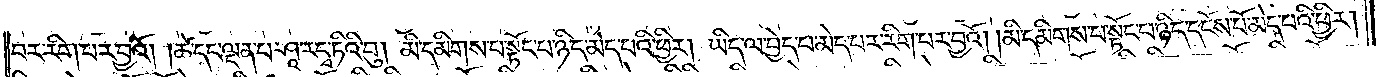བར་རིག་པར་བྱའོ། །ཚེ་དང་ལྡན་པ་ཤཱ་ར་དྭ་ཏིའི་བུ། མི་དམིགས་པ་སྟོང་པ་ཉིད་མེད་པའི་ཕྱིར། ཡིད་ལ་བྱེད་པ་མེད་པར་རིག་པར་བྱའོ། །མི་དམིགས་པ་སྟོང་པ་ཉིད་དངོས་པོ་མེད་པའི་ཕྱིར།
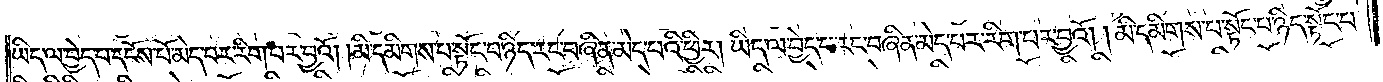ཡིད་ལ་བྱེད་པ་དངོས་པོ་མེད་པར་རིག་པར་བྱའོ། །མི་དམིགས་པ་སྟོང་པ་ཉིད་རང་བཞིན་མེད་པའི་ཕྱིར། ཡིད་ལ་བྱེད་པ་རང་བཞིན་མེད་པར་རིག་པར་བྱའོ། །མི་དམིགས་པ་སྟོང་པ་ཉིད་སྟོང་པ་
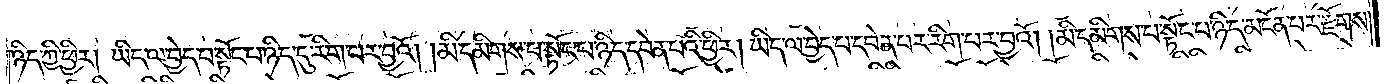ཉིད་ཀྱི་ཕྱིར། ཡིད་ལ་བྱེད་པ་སྟོང་པ་ཉིད་དུ་རིག་པར་བྱའོ། །མི་དམིགས་པ་སྟོང་པ་ཉིད་དབེན་པའི་ཕྱིར། ཡིད་ལ་བྱེད་པ་དབེན་པར་རིག་པར་བྱའོ། །མི་དམིགས་པ་སྟོང་པ་ཉིད་མངོན་པར་རྫོགས་
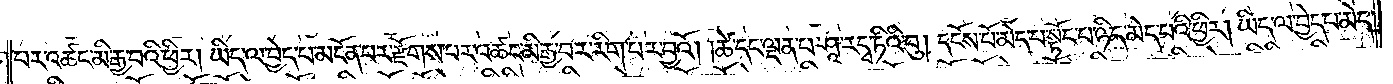པར་འཚང་མི་རྒྱ་བའི་ཕྱིར། ཡིད་ལ་བྱེད་པ་མངོན་པར་རྫོགས་པར་འཚང་མི་རྒྱ་བར་རིག་པར་བྱའོ། །ཚེ་དང་ལྡན་པ་ཤཱ་ར་དྭ་ཏིའི་བུ། དངོས་པོ་མེད་པ་སྟོང་པ་ཉིད་མེད་པའི་ཕྱིར། ཡིད་ལ་བྱེད་པ་མེད་
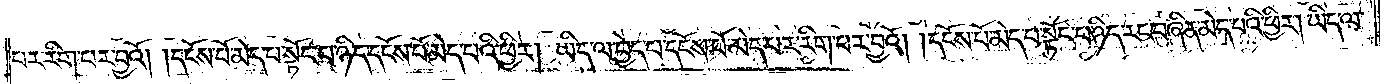པར་རིག་པར་བྱའོ། །དངོས་པོ་མེད་པ་སྟོང་པ་ཉིད་དངོས་པོ་མེད་པའི་ཕྱིར། ཡིད་ལ་བྱེད་པ་དངོས་པོ་མེད་པར་རིག་པར་བྱའོ། །དངོས་པོ་མེད་པ་སྟོང་པ་ཉིད་རང་བཞིན་མེད་པའི་ཕྱིར། ཡིད་ལ་
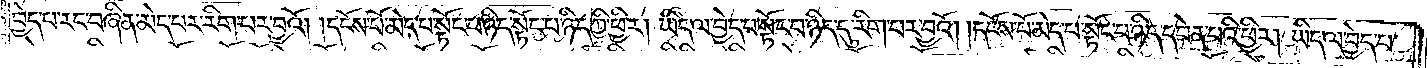བྱེད་པ་རང་བཞིན་མེད་པར་རིག་པར་བྱའོ། །དངོས་པོ་མེད་པ་སྟོང་པ་ཉིད་སྟོང་པ་ཉིད་ཀྱི་ཕྱིར། ཡིད་ལ་བྱེད་པ་སྟོང་པ་ཉིད་དུ་རིག་པར་བྱའོ། །དངོས་པོ་མེད་པ་སྟོང་པ་ཉིད་དབེན་པའི་ཕྱིར། ཡིད་ལ་བྱེད་པ་
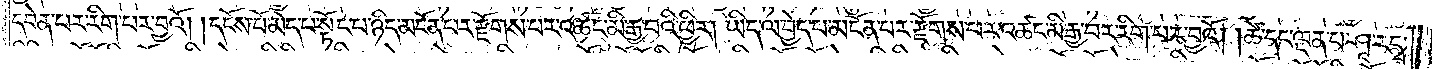དབེན་པར་རིག་པར་བྱའོ། །དངོས་པོ་མེད་པ་སྟོང་པ་ཉིད་མངོན་པར་རྫོགས་པར་འཚང་མི་རྒྱ་བའི་ཕྱིར། ཡིད་ལ་བྱེད་པ་མངོན་པར་རྫོགས་པར་འཚང་མི་རྒྱ་བར་རིག་པར་བྱའོ། །ཚེ་དང་ལྡན་པ་ཤཱ་ར་དྭ་
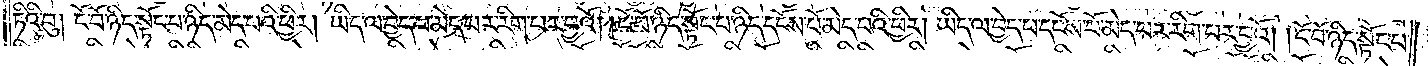ཏིའི་བུ། ངོ་བོ་ཉིད་སྟོང་པ་ཉིད་མེད་པའི་ཕྱིར། ཡིད་ལ་བྱེད་པ་མེད་པར་རིག་པར་བྱའོ། །ངོ་བོ་ཉིད་སྟོང་པ་ཉིད་དངོས་པོ་མེད་པའི་ཕྱིར། ཡིད་ལ་བྱེད་པ་དངོས་པོ་མེད་པར་རིག་པར་བྱའོ། །ངོ་བོ་ཉིད་སྟོང་པ་
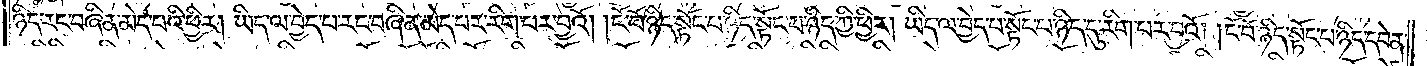ཉིད་རང་བཞིན་མེད་པའི་ཕྱིར། ཡིད་ལ་བྱེད་པ་རང་བཞིན་མེད་པར་རིག་པར་བྱའོ། །ངོ་བོ་ཉིད་སྟོང་པ་ཉིད་སྟོང་པ་ཉིད་ཀྱི་ཕྱིར། ཡིད་ལ་བྱེད་པ་སྟོང་པ་ཉིད་དུ་རིག་པར་བྱའོ། །ངོ་བོ་ཉིད་སྟོང་པ་ཉིད་དབེན་
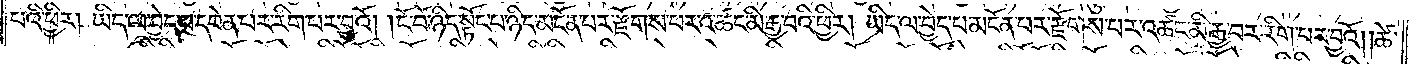པའི་ཕྱིར། ཡིད་ལ་བྱེད་པ་དབེན་པར་རིག་པར་བྱའོ། །ངོ་བོ་ཉིད་སྟོང་པ་ཉིད་མངོན་པར་རྫོགས་པར་འཚང་མི་རྒྱ་བའི་ཕྱིར། ཡིད་ལ་བྱེད་པ་མངོན་པར་རྫོགས་པར་འཚང་མི་རྒྱ་བར་རིག་པར་བྱའོ། །ཚེ་
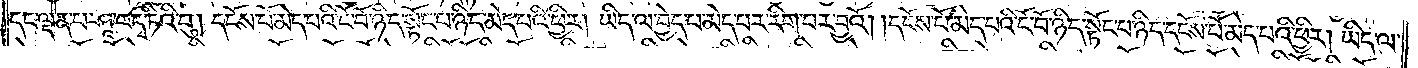དང་ལྡན་པ་ཤཱ་ར་དྭ་ཏིའི་བུ། དངོས་པོ་མེད་པའི་ངོ་བོ་ཉིད་སྟོང་པ་ཉིད་མེད་པའི་ཕྱིར། ཡིད་ལ་བྱེད་པ་མེད་པར་རིག་པར་བྱའོ། །དངོས་པོ་མེད་པའི་ངོ་བོ་ཉིད་སྟོང་པ་ཉིད་དངོས་པོ་མེད་པའི་ཕྱིར། ཡིད་ལ་
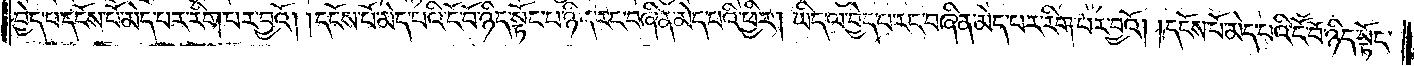བྱེད་པ་དངོས་པོ་མེད་པར་རིག་པར་བྱའོ། །དངོས་པོ་མེད་པའི་ངོ་བོ་ཉིད་སྟོང་པ་ཉིད་རང་བཞིན་མེད་པའི་ཕྱིར། ཡིད་ལ་བྱེད་པ་རང་བཞིན་མེད་པར་རིག་པར་བྱའོ། །དངོས་པོ་མེད་པའི་ངོ་བོ་ཉིད་སྟོང་
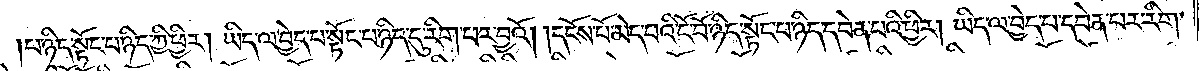པ་ཉིད་སྟོང་པ་ཉིད་ཀྱི་ཕྱིར། ཡིད་ལ་བྱེད་པ་སྟོང་པ་ཉིད་དུ་རིག་པར་བྱའོ། །དངོས་པོ་མེད་པའི་ངོ་བོ་ཉིད་སྟོང་པ་ཉིད་དབེན་པའི་ཕྱིར། ཡིད་ལ་བྱེད་པ་དབེན་པར་རིག་
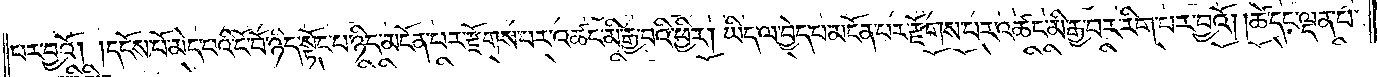པར་བྱའོ། །དངོས་པོ་མེད་པའི་ངོ་བོ་ཉིད་སྟོང་པ་ཉིད་མངོན་པར་རྫོགས་པར་འཚང་མི་རྒྱ་བའི་ཕྱིར། ཡིད་ལ་བྱེད་པ་མངོན་པར་རྫོགས་པར་འཚང་མི་རྒྱ་བར་རིག་པར་བྱའོ། །ཚེ་དང་ལྡན་པ་
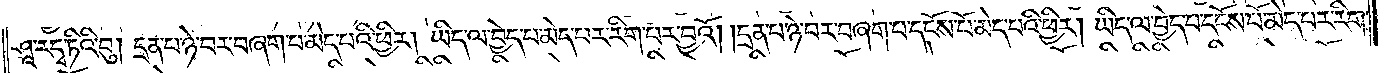ཤཱ་ར་དྭ་ཏིའི་བུ། དྲན་པ་ཉེ་བར་བཞག་པ་མེད་པའི་ཕྱིར། ཡིད་ལ་བྱེད་པ་མེད་པར་རིག་པར་བྱའོ། །དྲན་པ་ཉེ་བར་བཞག་པ་དངོས་པོ་མེད་པའི་ཕྱིར། ཡིད་ལ་བྱེད་པ་དངོས་པོ་མེད་པར་རིག་
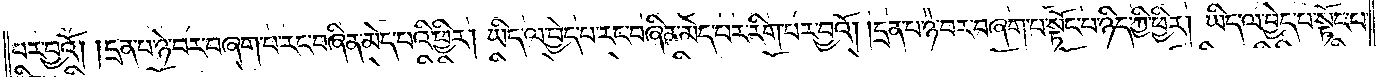པར་བྱའོ། །དྲན་པ་ཉེ་བར་བཞག་པ་རང་བཞིན་མེད་པའི་ཕྱིར། ཡིད་ལ་བྱེད་པ་རང་བཞིན་མེད་པར་རིག་པར་བྱའོ། །དྲན་པ་ཉེ་བར་བཞག་པ་སྟོང་པ་ཉིད་ཀྱི་ཕྱིར། ཡིད་ལ་བྱེད་པ་སྟོང་པ་
